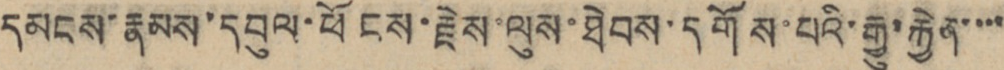དམངས་རྣམས་དབུལ་ཕོངས་རྗེས་ལུས་ཐེབས་དགོས་པའི་རྒྱུ་རྐྱེན་་་་
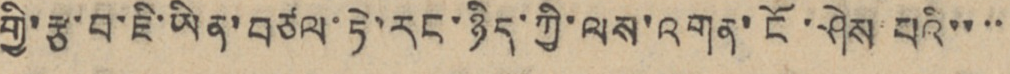གྱི་རྩ་བ་ཇི་ཡིན་བཙལ་ཏེ་རང་ཉིད་ཀྱི་ལས་འགན་ངོ་ཤེས་པའི་་་་
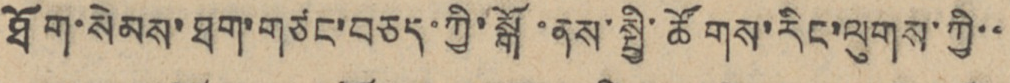ཐོག་སེམས་ཐག་གཙང་བཅད་ཀྱི་སྒོ་ནས་སྤྱི་ཚོགས་རིང་ལུགས་ཀྱི་་
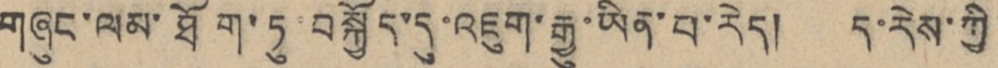གཞུང་ལམ་ཐོག་ཏུ་བསྐྱོད་དུ་འཇུག་རྒྱུ་ཡིན་པ་རེད། ད་རེས་ཀྱི་
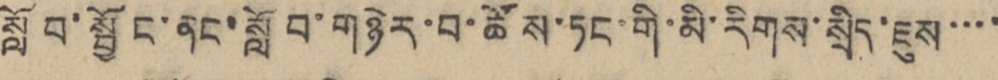སློབ་སྦྱོང་ནང་སློབ་གཉེར་བ་ཚོས་ཏང་གི་མི་རིགས་སྲིད་ཇུས་་་་
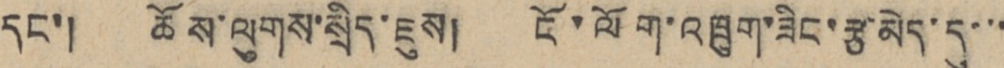དང་། ཆོས་ལུགས་སྲིད་ཇུས། ངོ་ལོག་འཁྲུག་ཟིང་རྩ་མེད་དུ་་་
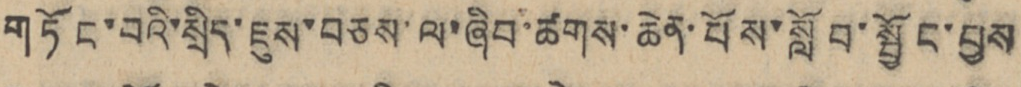གཏོང་བའི་སྲིད་ཇུས་བཅས་ལ་ཞིབ་ཚགས་ཆེན་པོས་སློབ་སྦྱོང་བྱས
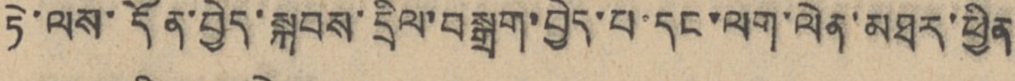ཏེ་ལས་དོན་བྱེད་སྐབས་དྲིལ་བསྒྲག་བྱེད་པ་དང་ལག་ལེན་མཐར་ཕྱིན
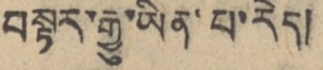བསྟར་རྒྱུ་ཡིན་པ་རེད།
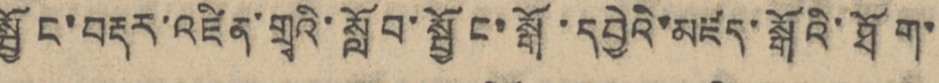སྦྱོང་བརྡར་འཛིན་གྲྭའི་སློབ་སྦྱོང་སྒོ་དབྱེའི་མཛད་སྒོའི་ཐོག་
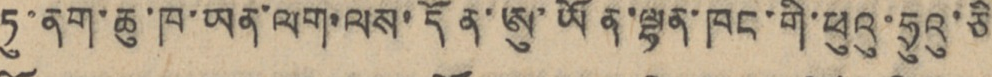ཏུ་ནག་ཆུ་ཁ་ཡན་ལག་ལས་དོན་ཨུ་ཡོན་ལྷན་ཁང་གི་ཕུའུ་ཧྲུའུ་ཅི་
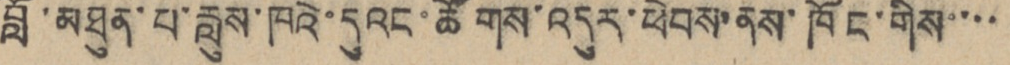བློ་མཐུན་པ་རླུས་ཁའེ་དུའང་ཚོགས་འདུར་ཕེབས་ནས་ཁོང་གིས་་་་
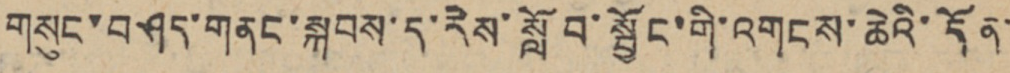གསུང་བཤད་གནང་སྐབས་ད་རེས་སློབ་སྦྱོང་གི་འགངས་ཆེའི་དོན་
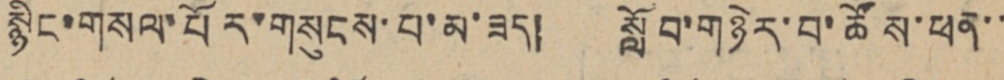སྙིང་གསལ་པོར་གསུངས་པ་མ་ཟད། སློབ་གཉེར་བ་ཚོས་ཕན་་
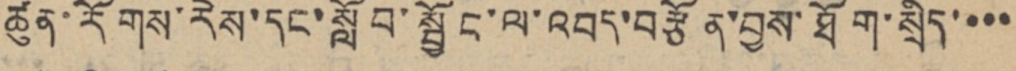ཚུན་རོགས་རེས་དང་སློབ་སྦྱོང་ལ་འབད་བརྩོན་བྱས་ཐོག་སྲིད་་་་
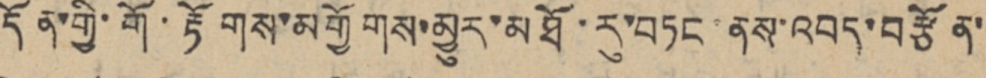དོན་གྱི་གོ་རྟོགས་མགྱོགས་མྱུར་མཐོ་རུ་བཏང་ནས་འབད་བརྩོན་
